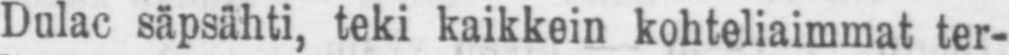Dulac säpsähti, teki kaikkein kohteliaimmat ter-
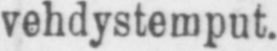vehdystemput.
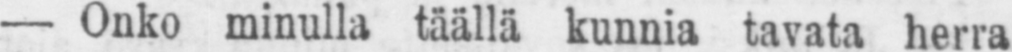— Onko minulla täällä kunnia tavata herra
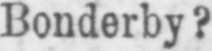Bonderby?
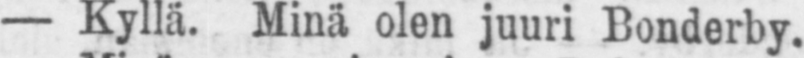— Kyllä Minä olen juuri Bonderby.
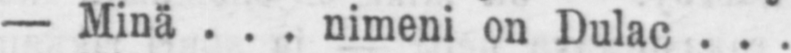— Minä . . . nimeni on Dulac . . .
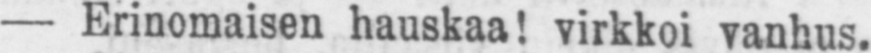— Erinomaisen hauskaa! virkkoi vanhus.
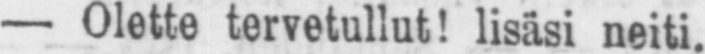— Olette tervetullut! lisäsi neiti.
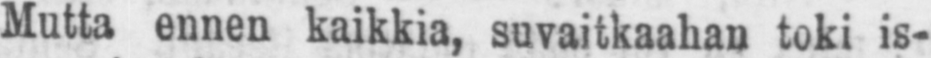Mutta ennen kaikkia, suvaitkaahan toki is-
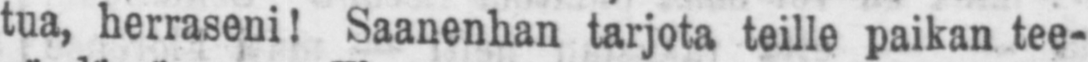tua, herraseni! Saanenhan tarjota teille paikan tee-
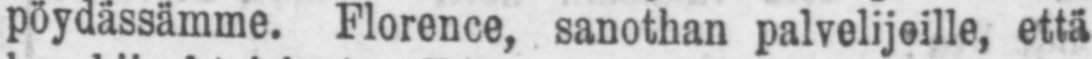pöydässämme. Florence, sanothan palvelijeille, että
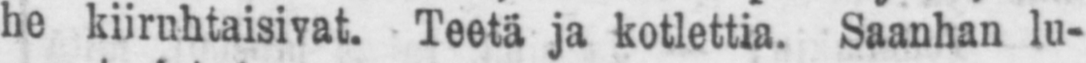he kiiruhtaisivat. Teetä ja kotlettia. Saanhan lu-
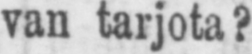van tarjota?
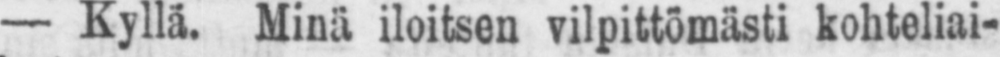— Kyllä. Minä iloitsen vilpittömästi kohteliai-
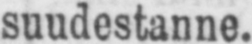suudestanne.
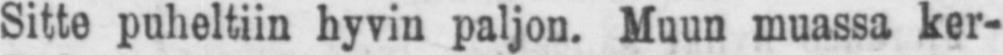Sitte puheltiin hyvin paljon. Muun muassa ker-
